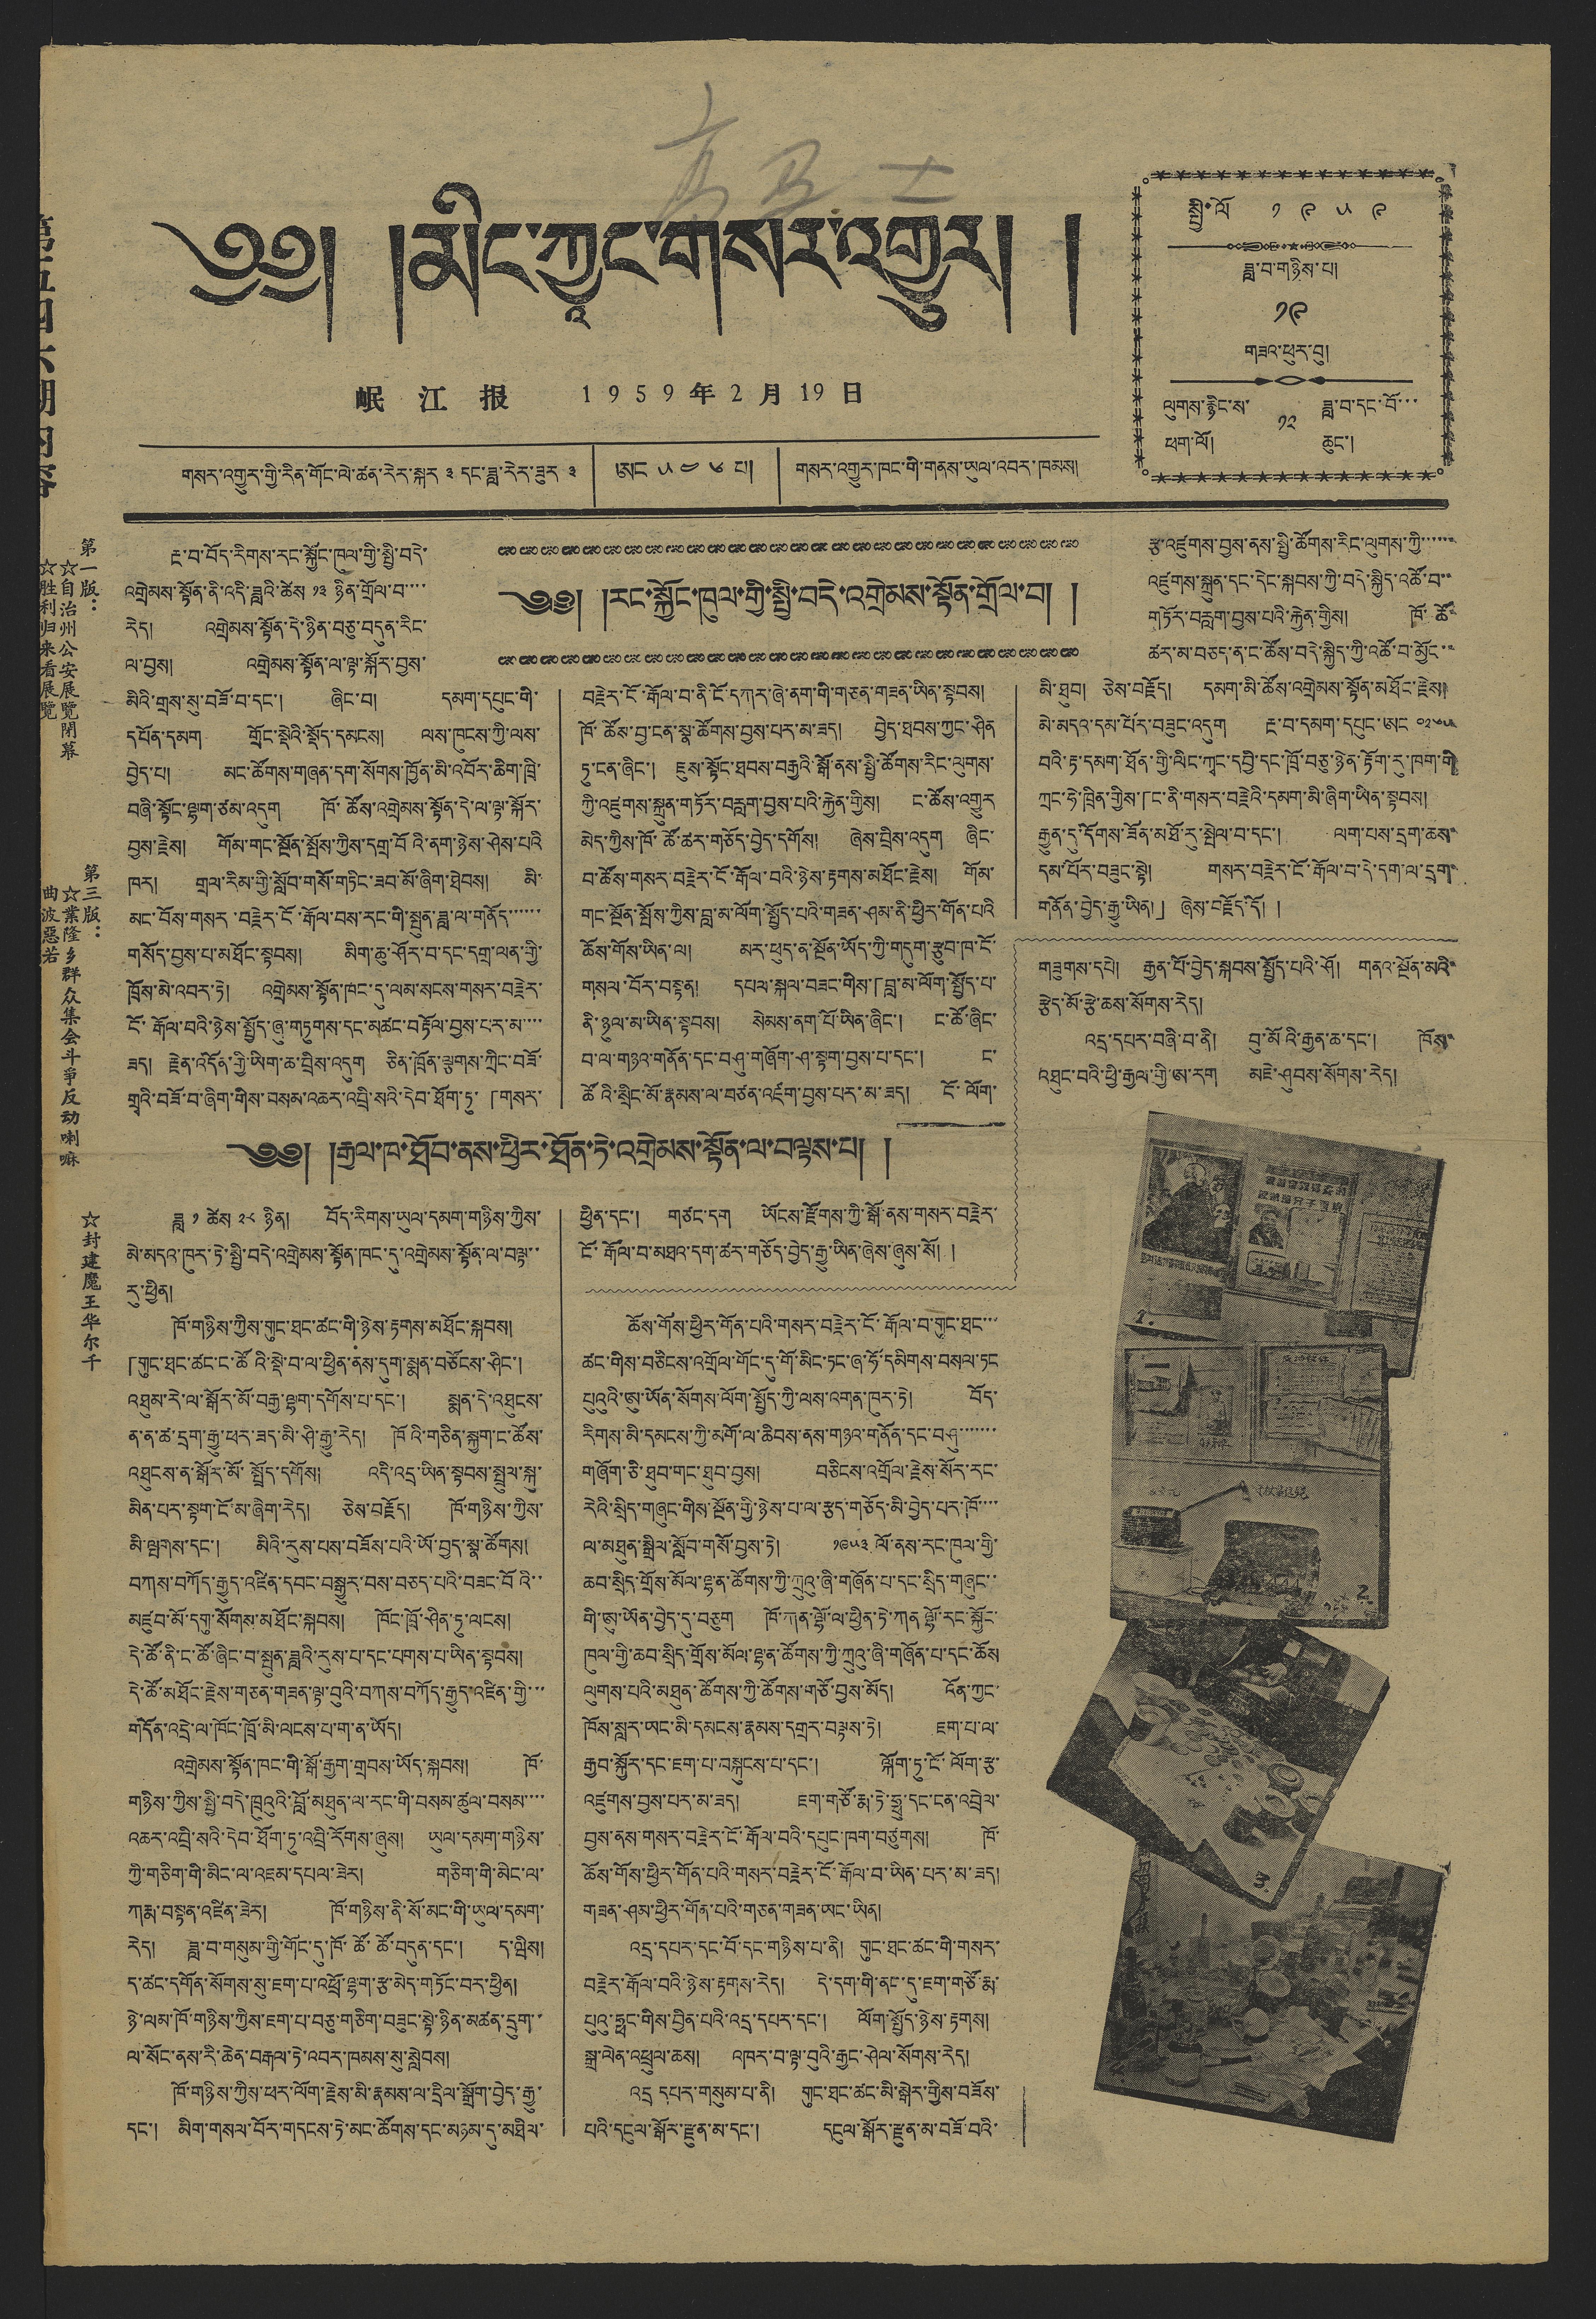༄༅། །མིང་ཀྱཱང་གསར་འགྱུར། །
报 江 报 1 9 5 9 年 2 月 19 日
གསར་འགྱུར་གྱི་རིན་གོང་ལེ་ཚན་རེར་སྐར ༣ དང་ཟླ་རེར་ཟུར ༣
ཨང ༥ ༤ ༦ པ།
གསར་འགྱུར་ཁང་གི་གནས་ཡུལ་འབར་ཁམས།
སྤྱི་ལོ ༡ ༩ ༥ ༩
ཟླ་བ་གཉིས་པ།
༡༩
གཟའ་ཕུར་བ།
ལུགས་རྙིང་ས་
ཕག་ལོ།
༡༢
ཟླ་བ་དང་བོ་་་
ཆུང་།
第五四六期內容
第一版：
☆自治州公安展覽閉幕
☆胜利归来看展覽
第三版：
☆業隆乡群众集会斗爭反动喇嘛
曲波惡若
☆封建魔王华尔千
༄༅། །རང་སྐྱོང་ཁུལ་གྱི་སྤྱི་བདེ་འགྲེམས་སྟོན་གྲོལ་བ། །
རྔ་བ་བོད་རིགས་རང་སྐྱོང་ཁུལ་གྱི་སྤྱི་བདེ་
འགྲེམས་སྟོན་ནི་འདི་ཟླའི་ཚེས ༡༣ ཉིན་གྲོལ་བ་་་་
རེད། འགྲེམས་སྟོན་དེ་ཉིན་བཅུ་བདུན་རིང་
ལ་བྱས། འགྲེམས་སྟོན་ལ་ལྟ་སྐོར་བྱས་
མིའི་གྲས་སུ་བཟོ་བ་དང་། ཞིང་བ། དམག་དཔུང་གི་
དཔོན་དམག གྲོང་སྡེའི་སྡོད་དམངས། ལས་ཁུངས་ཀྱི་ལས་
བྱེད་པ། མང་ཚོགས་གཞན་དག་སོགས་ཁྱོན་མི་འབོར་ཆིག་ཁྲི
བཞི་སྟོང་ལྷག་ཙམ་འདུག ཁོ་ཚོས་འགྲེམས་སྟོན་དེ་ལ་ལྟ་སྐོར་
བྱས་རྗེས། གོམ་གང་སྔོན་སྤོས་ཀྱིས་དགྲ་བོའི་ནག་ཉེས་ཤེས་པའི
ཁར། གྲལ་རིམ་གྱི་སློབ་གསོ་གཏིང་ཟབ་མོ་ཞིག་ཐེབས། མི་
མང་བོས་གསར་བརྗེར་ངོ་རྒོལ་བས་རང་གི་སྤུན་ཟླ་ལ་གནོད་་་་་
གསོད་བྱས་པ་མཐོང་སྟབས། མིག་ཆུ་ཤོར་བ་དང་དགྲ་ལན་གྱི་
ཁྲོས་མེ་འབར་ཏེ། འགྲེམས་སྟོན་ཁང་དུ་ལམ་སངས་གསར་བརྗེར་
ངོ་རྒོལ་བའི་ཉེས་སྤྱོད་ཞུ་གཏུགས་དང་མཚང་བརྟོལ་བྱས་པར་མ་་་་
ཟད། རྗེན་འདོན་གྱི་ཡིག་ཆ་བྲིས་འདུག ཅིན་ཁྲོན་ལྕགས་ཀྲིང་བཟོ་
གྲྭའི་བཟོ་བ་ཞིག་གིས་བསམ་འཆར་འབྲི་སའི་དེབ་ཐོག་ཏུ་「གསར་
བརྗེར་ངོ་རྒོལ་བ་ནི་ངོ་དཀར་ཞེ་ནག་གི་གཅན་གཟན་ཡིན་སྟབས།
ཁོ་ཚོས་བྱ་ངན་སྣ་ཚོགས་བྱས་པར་མ་ཟད། བྱེད་ཐབས་ཀྱང་ཤིན
ཏུ་ངན་ཞིང་། ཇུས་སྟོང་ཐབས་བརྒྱའི་སྒོ་ནས་སྤྱི་ཚོགས་རིང་ལུགས་
ཀྱི་འཛུགས་སྐྲུན་གཏོར་བརླག་བྱས་པའི་རྐྱེན་གྱིས། ང་ཚོས་འགྱུར
མེད་ཀྱིས་ཁོ་ཚོ་ཚར་གཅོད་བྱེད་དགོས། ཞེས་བྲིས་འདུག ཞིང་
བ་ཚོས་གསར་བརྗེར་ངོ་རྒོལ་བའི་ཉེས་རྟགས་མཐོང་རྗེས། གོམ་
གང་སྔོན་སྤོས་ཀྱིས་བླ་མ་ལོག་སྤྱོད་པའི་གཟན་ཤམ་ནི་ཕྱིར་གོན་པའི
ཆོས་གོས་ཡིན་ལ། མར་ཕུད་ན་སྔོན་ཡོད་ཀྱི་གདུག་རྩུབ་ཁ་ངོ་
གསལ་བོར་བསྟན། དཔལ་སྐལ་བཟང་གིས་「བླ་མ་ལོག་སྤྱོད་པ་
ནི་ཉུལ་མ་ཡིན་སྟབས། སེམས་ནག་པོ་ཡིན་ཞིང་། ང་ཚོ་ཞིང་
བ་ལ་གཉའ་གནོན་དང་བཤུ་གཞོག་ཤ་སྟག་བྱས་པ་དང་། ང་
ཚོའི་སྲིད་མོ་རྣམས་ལ་བཙན་འཛིག་བྱས་པར་མ་ཟད། ངོ་ལོག་
རྩ་འཛུགས་བྱས་ནས་སྤྱི་ཚོགས་རིང་ལུས་ཀྱི་་་་་་
འཛུགས་སྐྲུན་དང་དེང་སྐབས་ཀྱི་བདེ་སྐྱིད་འཚོ་བ་་
གཏོར་བརླག་བྱས་པའི་རྐྱེན་གྱིས། ཁོ་ཚོ་
ཚར་མ་བཅད་ན་ང་ཚོས་བདེ་སྐྱིད་ཀྱི་འཚོབ་མྱོང་་
མི་ཐུབ། ཅེས་བརྗོད། དམག་མི་ཚོས་འགྲེམས་སྟོན་མཐོང་རྗེས།
མེ་མདའ་དམ་པོར་བཟུང་འདུག རྔ་བ་དམག་དཔུང་ཨང ༠༢༦༥
བའི་རྟ་དམག་ཐོན་གྱི་ལིང་ཀྲང་དབྱི་དང་ཁྲོ་བཅུ་ཉེན་རྟོག་རུ་ཁག་གི
ཀྲུང་ཧེ་ཁྲིན་གྱིས་「ང་ནི་གསར་བརྗེའི་དམག་མི་ཞིག་ཡིན་སྟབས།
རྒྱུན་དུ་དོགས་ཟོན་མཐོ་རུ་སྤེལ་བ་དང་། ལག་པས་དྲག་ཆས་
དམ་པོར་བཟུང་སྟ། གསར་བརྗེར་ངོ་རྒོལ་བ་དེ་དག་ལ་དྲུག་
གནོན་བྱེད་རྒྱུ་ཡིན།」 ཞེས་བརྗོད་དོ། །
༄༅། །རྒྱལ་ཁ་ཐོབ་ནས་ཕྱིར་ཐོན་ཏེ་འགྲེམས་སྟོན་ལ་བལྟས་པ། །
ཟླ ༡ ཚེས ༢༨ ཉིན། བོད་རིགས་ཡུལ་དམག་གཉིས་ཀྱིས་
མེ་མདའ་ཁུར་ཏེ་སྤྱི་བདེ་འགྲེམས་སྟོན་ཁང་དུ་འགྲེམས་སྟོན་ལ་བལྟ་་
རུ་ཕྱིན།
ཁོ་གཉིས་ཀྱིས་གུང་ཐང་ཚང་གི་ཉེས་རྟགས་མཐོང་སྐབས།
「གུང་ཐང་ཚང་ང་ཚོའི་སྡེ་བ་ལ་ཕྱིན་ནས་དུག་སྨན་བཙོངས་ཤིང་།
འཐུམ་རེ་ལ་སྒོར་མོ་བརྒྱ་ལྷག་དགོས་པ་དང་། སྨན་དེ་འཐུངས་
ན་ན་ཚ་དྲག་རྒྱུ་ཕར་ཟད་མི་ཤི་རྒྱུ་རེད། ཁོའི་གཅིན་སྐྱག་ང་ཚོས་
འཐུངས་ན་སྒོར་མོ་སྤྲོད་དགོས། འདི་འདྲ་ཡིན་སྟབས་སྤྲུལ་སྐུ་
མིན་པར་སྟག་ངོ་མ་ཞིག་རེད། ཅེས་བརྗོད། ཁོ་གཉིས་ཀྱིས་
མི་ལྤགས་དང་། མིའི་རུས་པས་བཟོས་པའི་ཡོ་བྱད་སྣ་ཚོགས།
བཀས་བཀོད་རྒྱུད་འཛིན་དབང་བསྒྱུར་བས་བཅད་པའི་བཟང་བོའི་་
མཛུབ་མོ་དགུ་སོགས་མཐོང་སྐབས། ཁོང་ཁྲོ་ཤིན་ཏུ་ལངས།
དེ་ཚོ་ནི་ང་ཚོ་ཞིང་བ་སྤུན་ཟླའི་རུས་པ་དང་པགས་པ་ཡིན་སྟབས།
དེ་ཚོ་མཐོང་རྗེས་གཅན་གཟན་ལྟ་བུའི་བཀས་བཀོད་རྒྱུད་འཛིན་གྱི་་་
གདོན་འདྲེ་ལ་ཁོང་ཁྲོ་མི་ལངས་པ་ག་ན་ཡོད།
འགྲེམས་སྟོན་ཁང་གི་སྒོ་རྒྱག་གྲབས་ཡོད་སྐབས། ཁོ་
གཉིས་ཀྱིས་སྤྱི་བདེ་ཁྲུའུའི་བློ་མཐུན་ལ་རང་གི་བསམ་ཚུལ་བསམ་་་་
འཆར་འབྲི་སའི་དེབ་ཐོག་ཏུ་འབྲི་རོགས་ཞུས། ཡུལ་དམག་གཉིས་
ཀྱི་གཅིག་གི་མིང་ལ་འཇམ་དཔལ་ཟེར། གཅིག་གི་མིང་ལ་
ཀརྨ་བསྟན་འཛིན་ཟེར། ཁོ་གཉིས་ནི་སོ་མང་གི་ཡུལ་དམག་
རེད། ཟླ་བ་གསུམ་གྱི་གོང་དུ་ཁོ་ཚོ་ཚོ་བདུན་དང་། ད་ཝིས།
ད་ཚང་དགོན་སོགས་སུ་ཇག་པ་འཕྲོ་ལྷག་རྩ་མེད་གཏོང་བར་ཕྱིན།
ཉེ་ལམ་ཁོ་གཉིས་ཀྱིས་ཇག་པ་བཅུ་གཅིག་བཟུང་སྟེ་ཉིན་མཚན་དྲུག་་
ལ་སོང་ནས་རི་ཆེན་བརྒལ་ཏེ་འབར་ཁམས་སུ་སླེབས།
ཁོ་གཉིས་ཀྱིས་ཕར་ལོག་རྗེས་མི་རྣམས་ལ་དྲིལ་སྒྲོག་བྱེད་རྒྱུ་
དང་། མིག་གསལ་བོར་གདངས་ཏེ་མང་ཚོགས་དང་མཉམ་དུ་མཐིལ་
ཕྱིན་དང་། གཙང་དག ཡོངས་རྫོགས་ཀྱི་སྒོ་ནས་གསར་བརྗེར་
ངོ་རྒོལ་བ་མཐའ་དག་ཚར་གཅོད་བྱེད་རྒྱུ་ཡིན་ཞེས་ཞུས་སོ། །
ཆོས་གོས་ཕྱིར་གོན་པའི་གསར་བརྗེར་ངོ་རྒོལ་བ་གུང་ཐང་་་
ཚང་གིས་བཅིངས་འགྲོལ་གོང་དུ་གོ་མིང་ཏང་ཞུ་ཧོ་དམིགས་བསལ་ཏང
པུའུའི་ཨུ་ཡོན་སོགས་ལོག་སྤྱོད་ཀྱི་ལས་འགན་ཁུར་ཏེ། བོད་
རིགས་མི་དམངས་ཀྱི་མགོ་ལ་ཆིབས་ནས་གཉའ་གནོན་དང་བཤུ་་་་་་་
གཞོག་ཅི་ཐུབ་གང་ཐུབ་བྱས། བཅིངས་འགྲོལ་རྗེས་སོར་རང་
རེའི་སྲིད་གཞུང་གིས་སྔོན་གྱི་ཉེས་པ་ལ་རྩད་གཅོད་མི་བྱེད་པར་ཁོ་་་་
ལ་མཐུན་སྒྲིལ་སློབ་གསོ་བྱས་ཏེ། ༡༩༥༣ ལོ་ནས་རང་ཁུལ་གྱི་
ཆབ་སྲིད་གྲོས་མོལ་ལྷན་ཚོགས་ཀྱི་ཀྲུའུ་ཞི་གཞོན་པ་དང་སྲིད་གཞུང་་
གི་ཨུ་ཡོན་བྱེད་དུ་བཅུག ཁོ་ཀན་ལྷོ་ལ་ཕྱིན་ཏེ་ཀན་ལྷོ་རང་སྐྱོང་
ཁུལ་གྱི་ཆབ་སྲིད་གྲོས་མོལ་ལྷན་ཚོགས་ཀྱི་ཀྲུའུ་ཞི་གཞོན་པ་དང་ཆོས
ལུགས་པའི་མཐུན་ཚོགས་ཀྱི་ཚོགས་གཙོ་བྱས་མོད། འོན་ཀྱང་
ཁོས་སླར་ཡང་མི་དམངས་རྣམས་དགྲར་བལྟས་ཏེ། ཇག་པ་ལ་
རྒྱབ་སྐྱོར་དང་ཇག་པ་བསྐུངས་པ་དང་། ལྐོག་ཏུ་ངོ་ལོག་རྩ་
འཛུགས་བྱས་པར་མ་ཟད། ཇག་གཙོ་རྨ་ཏེ་ཧྥུ་དང་ངན་འབྲེལ་
བྱས་ནས་གསར་བརྗེར་ངོ་རྒོལ་བའི་དཔུང་ཁག་བཙུགས། ཁོ་
ཆོས་གོས་ཕྱིར་གོན་པའི་གསར་བརྗེར་ངོ་རྒོལ་བ་ཡིན་པར་མ་ཟད།
གཟན་ཤམ་ཕྱིར་གོན་པའི་གཅན་གཟན་ཡང་ཡིན།
འདྲ་དཔར་དང་བོ་དང་གཉིས་པ་ནི། གུང་ཐང་ཚང་གི་གསར་
བརྗེར་རྒོལ་བའི་ཉེས་རྟགས་རེད། དེ་དག་གི་ནང་དུ་ཇག་གཙོ་རྨ་
པུའུ་ཧྥང་གིས་བྱིན་པའི་འདྲ་དཔར་དང་། ལོག་སྤྱོད་ཉེས་རྟགས།
སྒྲ་ལེན་འཕྲུལ་ཆས། འཁར་བ་ལྟ་བུའི་རྒྱང་ཤེལ་སོགས་རེད།
འདྲ དཔར་གསུམ་པ་ནི། གུང་ཐང་ཚང་མི་སྒེར་གྱིས་བཟོས་
པའི་དངུལ་སྒོར་རྫུན་མ་དང་། དངུལ་སྒོར་རྫུན་མ་བཟོ་བའི་
གཟུགས་དཔེ། རྒྱན་པོ་བྱེད་སྐབས་སྤྱོད་པའི་ཤོ། གནའ་སྔོན་མའི་
རྩེད་མོ་རྩེ་ཆས་སོགས་རེད།
འདྲ་དཔར་བཞི་བ་ནི། བུ་མོའི་རྒྱུན་ཆ་དང་། ཁོས་
འཐུང་བི་ཕྱ་རྒྱལ་གྱི་ཨ་རག མཇེ་ཤུབས་སོགས་རེད།
